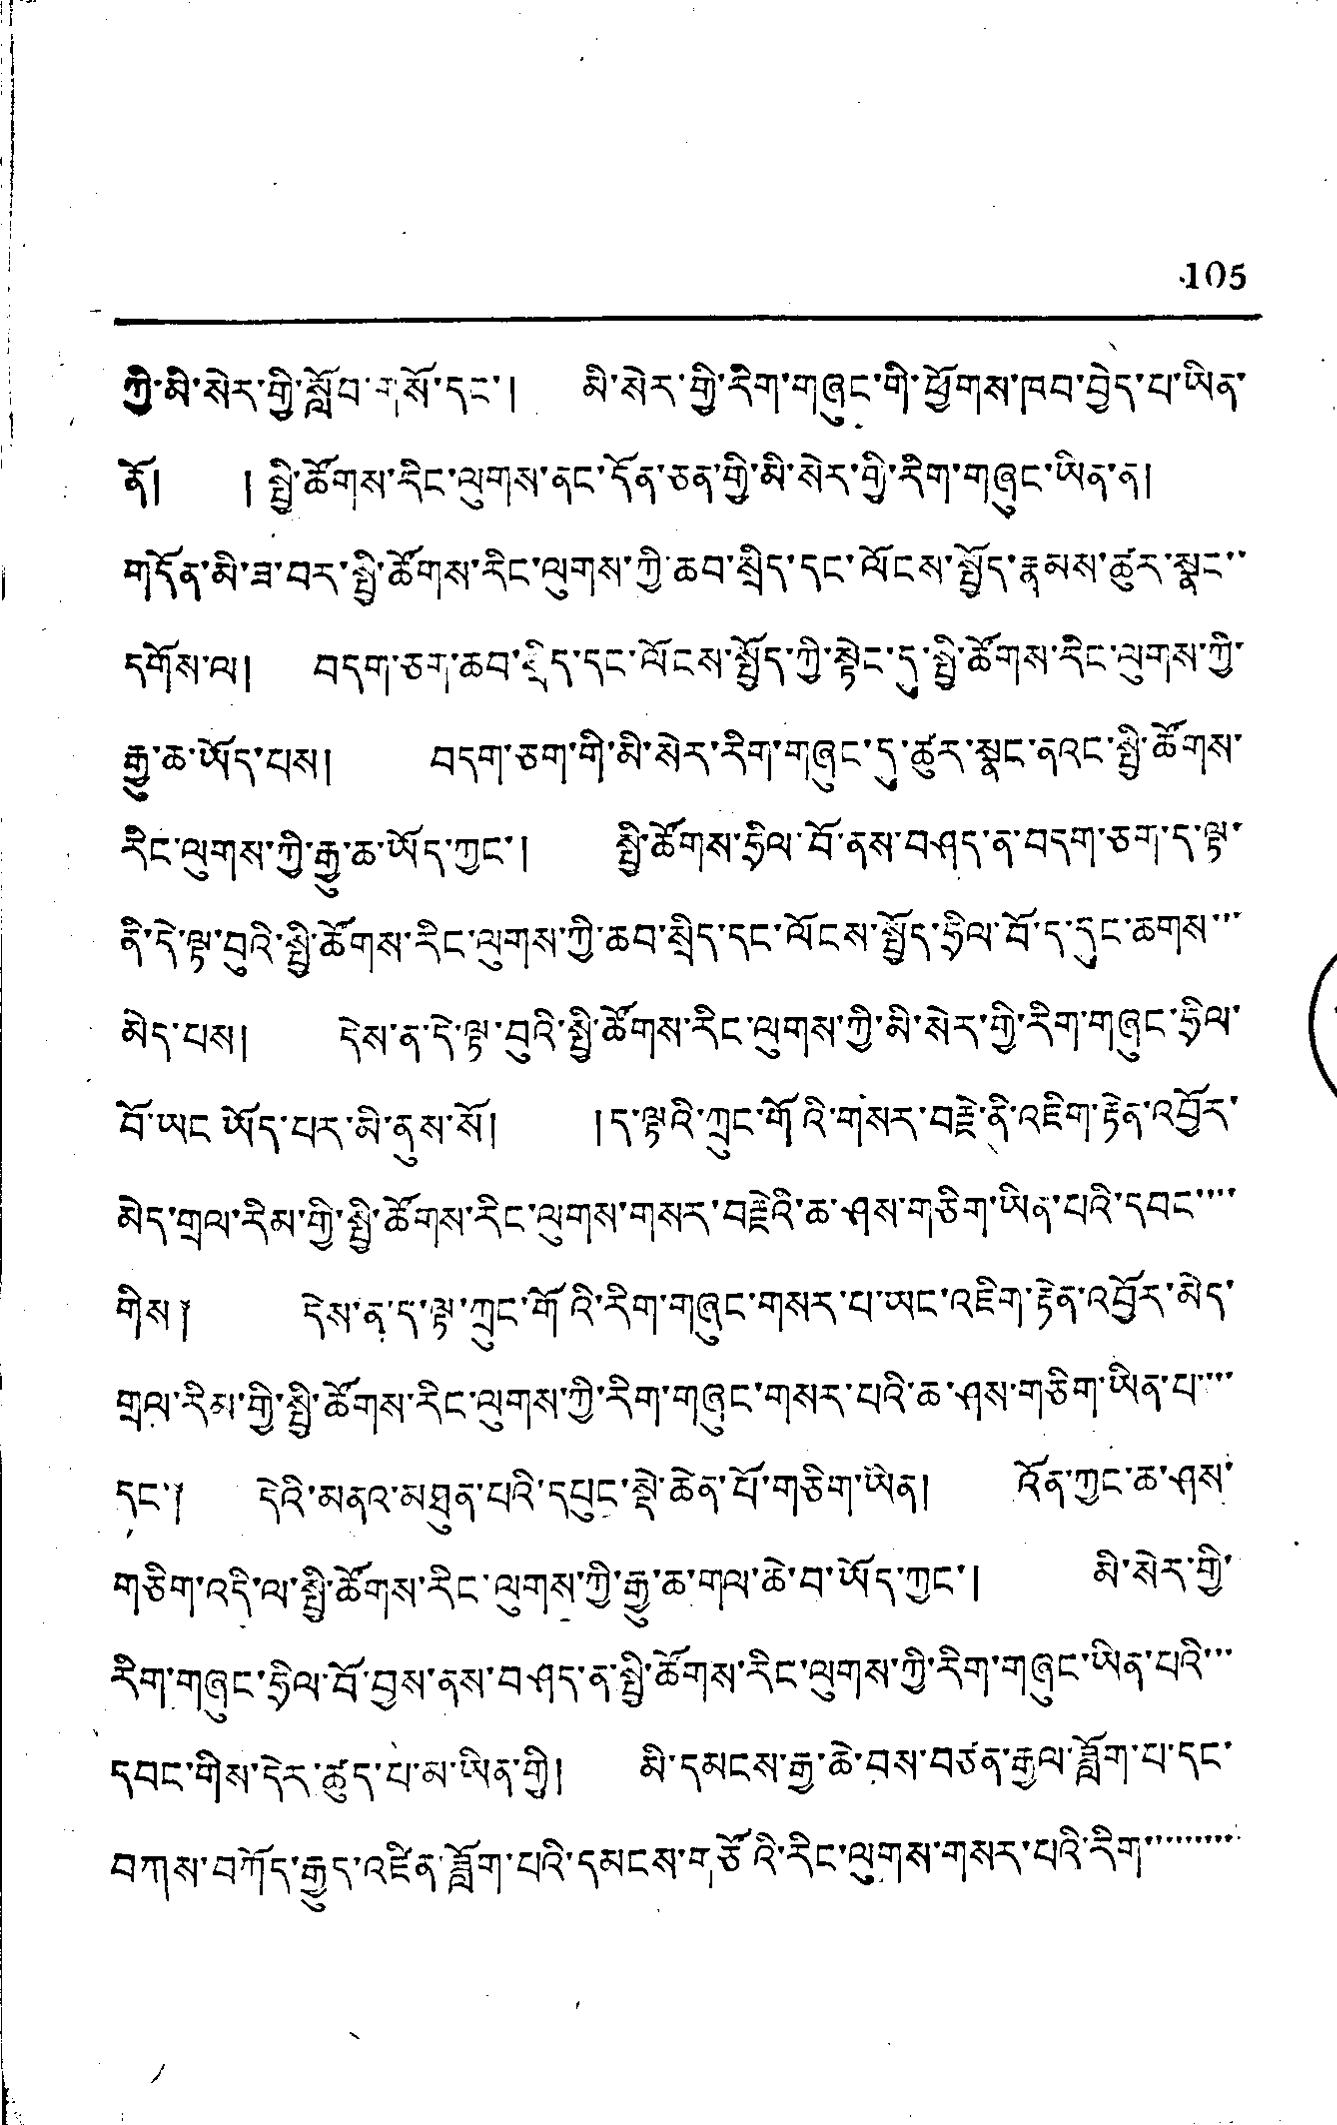105
ཀྱི་མི་སེར་གྱི་སློབ་གསོ་དང་། མི་སེར་གྱི་རིག་གཞུང་གི་ཕྱོགས་ཁབ་བྱེད་པ་ཡིན་
ནོ། ། སྤྱི་ཚོགས་རིང་ལུགས་ནང་དོན་ཅན་གྱི་མི་སེར་གྱི་རིག་གཞུང་ཡིན་ན།
གདོན་མི་ཟ་བར་སྤྱི་ཚོགས་རིང་ལུགས་ཀྱི་ཆབ་སྲིད་དང་ལོངས་སྤྱོད་རྣམས་ཚུར་སྣང་་
དགོས་ལ། བདག་ཅག་ཆབ་སྲིད་དང་ལོངས་སྤྱོད་ཀྱི་སྟེང་དུ་སྤྱི་ཚོགས་རིང་ལུགས་ཀྱི་
རྒྱུ་ཆ་ཡོད་པས། བདག་ཅག་གི་མི་སེར་རིག་གཞུང་དུ་ཚུར་སྣང་ནའང་སྤྱི་ཚོགས་
རིང་ལུགས་ཀྱི་རྒྱུ་ཆ་ཡོད་ཀྱང་། སྤྱི་ཚོགས་ཧྲིལ་བོ་ནས་བཤད་ན་བདག་ཅག་ད་ལྟ་
ནི་དེ་ལྟ་བུའི་སྤྱི་ཚོགས་རིང་ལུགས་ཀྱི་ཆབ་སྲིད་དང་ལོངས་སྤྱོད་ཧྲིལ་བོ་ད་དུང་ཆགས་་་
མེད་པས། དེས་ན་དེ་ལྟ་བུའི་སྤྱི་ཚོགས་རིང་ལུགས་ཀྱི་མི་སེར་གྱི་རིག་གཞུང་ཧྲིལ་
བོ་ཡང ཡོད་པར་མི་ནུས་སོ། །ད་ལྟའི་ཀྲུང་གོའི་གསར་བརྗེ་ནི་འཇིག་རྟེན་འབྱོར་
མེད་གྲལ་རིམ་གྱི་སྤྱི་ཚོགས་རིང་ལུགས་གསར་བརྗེའི་ཆ་ཤས་གཅིག་ཡིན་པའི་དབང་་་་
གིས༐ དེས་ན་དུ་ལྟ་ཀྲུང་གོའི་རིག་གཞུང་གསར་པ་ཡང་འཇིག་རྟེན་འབྱོར་མེད་
གྲལ་རིམ་གྱི་སྤྱི་ཚོགས་རིང་ལུགས་ཀྱི་རིག་གཞུང་གསར་པའི་ཆ་ཤས་གཅིག་ཡིན་པ་་་་
དང་། དེའི་མནའ་མཐུན་པའི་དཔུང་སྡེ་ཆེན་པོ་གཅིག་ཡིན། འོན་ཀྱང་ཆ་ཤས་
གཅིག་འདི་ལ་སྤྱི་ཚོགས་རིང་ལུགས་ཀྱི་རྒྱུ་ཆ་གལ་ཆེ་བ་ཡོད་ཀྱང་། མི་སེར་གྱི་
རིག་གཞུང་ཧྲིལ་བོ་བྱས་ནས་བཤད་ན་སྤྱི་ཚོགས་རིང་ལུགས་ཀྱི་རིག་གཞུང་ཡིན་པའི་་་
དབང་གིས་དེར་ཚུད་པ་མ་ཡིན་གྱི། མི་དམངས་རྒྱ་ཆེ་བས་བཙན་རྒྱལ་ཟློག་པ་དང་
བཀས་བཀོད་རྒྱུད་འཛིན་ཟློག་པའི་དམངས་གཙོའི་རིང་ལུགས་གསར་པའི་རིག་་་་་་་་་
